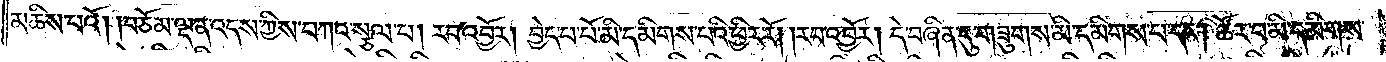མཆིས་པའོ། །བཅོམ་ལྡན་འདས་ཀྱིས་བཀའ་སྩལ་པ། རབ་འབྱོར། བྱེད་པ་པོ་མི་དམིགས་པའི་ཕྱིར་རོ། །རབ་འབྱོར། དེ་བཞིན་དུ་གཟུགས་མི་དམིགས་པ་དང༌། ཚོར་བ་མི་དམིགས་
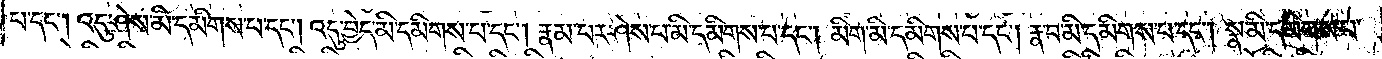པ་དང༌། འདུ་ཤེས་མི་དམིགས་པ་དང༌། འདུ་བྱེད་མི་དམིགས་པ་དང༌། རྣམ་པར་ཤེས་པ་མི་དམིགས་པ་དང༌། མིག་མི་དམིགས་པ་དང༌། རྣ་བ་མི་དམིགས་པ་དང༌། སྣ་མི་དམིགས་པ་
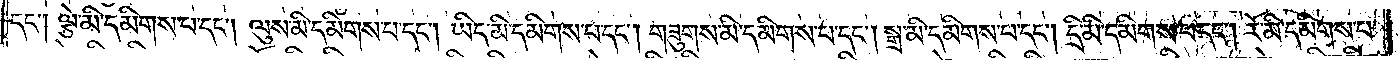དང༌། ལྕེ་མི་དམིགས་པ་དང༌། ལུས་མི་དམིགས་པ་དང༌། ཡིད་མི་དམིགས་པ་དང༌། གཟུགས་མི་དམིགས་པ་དང༌། སྒྲ་མི་དམིགས་པ་དང༌། དྲི་མི་དམིགས་པ་དང༌། རོ་མི་དམིགས་པ་
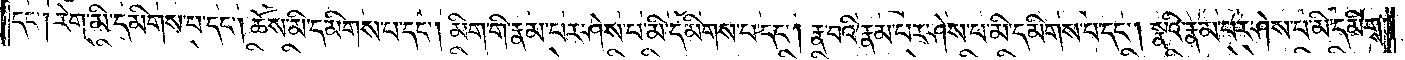དང༌། རེག་མི་དམིགས་པ་དང༌། ཆོས་མི་དམིགས་པ་དང༌། མིག་གི་རྣམ་པར་ཤེས་པ་མི་དམིགས་པ་དང༌། རྣ་བའི་རྣམ་པར་ཤེས་པ་མི་དམིགས་པ་དང༌། སྣའི་རྣམ་པར་ཤེས་པ་མི་དམིགས་
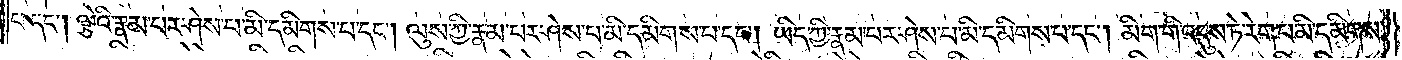པ་དང༌། ལྕེའི་རྣམ་པར་ཤེས་པ་མི་དམིགས་པ་དང༌། ལུས་ཀྱི་རྣམ་པར་ཤེས་པ་མི་དམིགས་པ་དང༌། ཡིད་ཀྱི་རྣམ་པར་ཤེས་པ་མི་དམིགས་པ་དང༌། མིག་གི་འདུས་ཏེ་རེག་པ་མི་དམིགས་
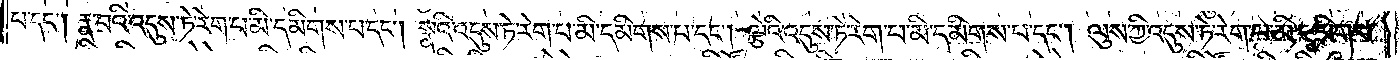པ་དང༌། རྣ་བའི་འདུས་ཏེ་རེག་པ་མི་དམིགས་པ་དང༌། སྣའི་འདུས་ཏེ་རེག་པ་མི་དམིགས་པ་དང༌། ལྕེའི་འདུས་ཏེ་རེག་པ་མི་དམིགས་པ་དང༌། ལུས་ཀྱི་འདུས་ཏེ་རེག་པ་མི་དམིགས་
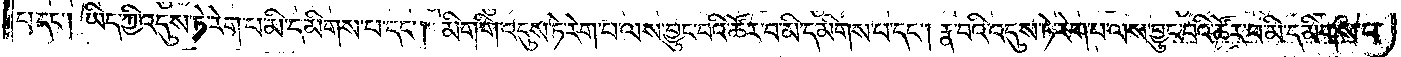པ་དང༌། ཡིད་ཀྱི་འདུས་ཏེ་རེག་པ་མི་དམིགས་པ་དང༌། མིག་གི་འདུས་ཏེ་རེག་པ་ལས་བྱུང་བའི་ཚོར་བ་མི་དམིགས་པ་དང༌། རྣ་བའི་འདུས་ཏེ་རེག་པ་ལས་བྱུང་བའི་ཚོར་བ་མི་དམིགས་པ་
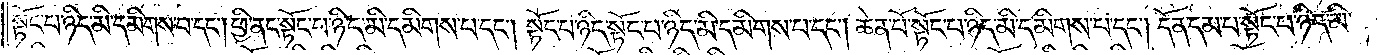སྟོང་པ་ཉིད་མི་དམིགས་པ་དང༌། ཕྱི་ནང་སྟོང་པ་ཉིད་མི་དམིགས་པ་དང༌། སྟོང་པ་ཉིད་སྟོང་པ་ཉིད་མི་དམིགས་པ་དང༌། ཆེན་པོ་སྟོང་པ་ཉིད་མི་དམིགས་པ་དང༌། དོན་དམ་པ་སྟོང་པ་ཉིད་མི་
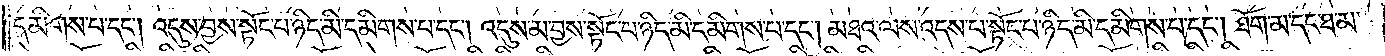དམིགས་པ་དང༌། འདུས་བྱས་སྟོང་པ་ཉིད་མི་དམིགས་པ་དང༌། འདུས་མ་བྱས་སྟོང་པ་ཉིད་མི་དམིགས་པ་དང༌། མཐའ་ལས་འདས་པ་སྟོང་པ་ཉིད་མི་དམིགས་པ་དང༌། ཐོག་མ་དང་ཐ་མ་
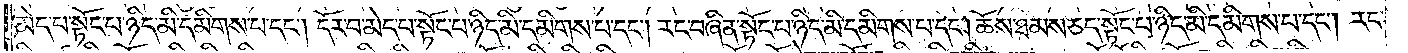མེད་པ་སྟོང་པ་ཉིད་མི་དམིགས་པ་དང༌། དོར་བ་མེད་པ་སྟོང་པ་ཉིད་མི་དམིགས་པ་དང༌། རང་བཞིན་སྟོང་པ་ཉིད་མི་དམིགས་པ་དང༌། ཆོས་ཐམས་ཅད་སྟོང་པ་ཉིད་མི་དམིགས་པ་དང༌། རང་
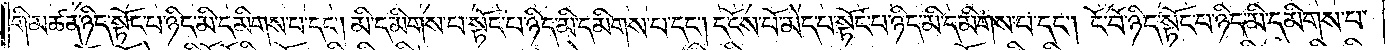གི་མཚན་ཉིད་སྟོང་པ་ཉིད་མི་དམིགས་པ་དང༌། མི་དམིགས་པ་སྟོང་པ་ཉིད་མི་དམིགས་པ་དང༌། དངོས་པོ་མེད་པ་སྟོང་པ་ཉིད་མི་དམིགས་པ་དང༌། ངོ་བོ་ཉིད་སྟོང་པ་ཉིད་མི་དམིགས་པ་
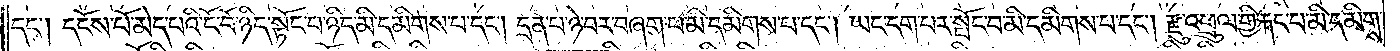དང༌། དངོས་པོ་མེད་པའི་ངོ་བོ་ཉིད་སྟོང་པ་ཉིད་མི་དམིགས་པ་དང༌། དྲན་པ་ཉེ་བར་བཞག་པ་མི་དམིགས་པ་དང༌། ཡང་དག་པར་སྤོང་བ་མི་དམིགས་པ་དང༌། རྫུ་འཕྲུལ་གྱི་རྐང་པ་མི་དམིགས་
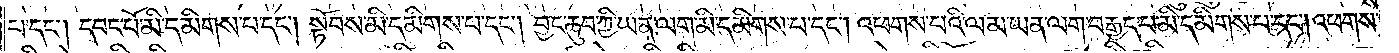པ་དང༌། དབང་པོ་མི་དམིགས་པ་དང༌། སྟོབས་མི་དམིགས་པ་དང༌། བྱང་ཆུབ་ཀྱི་ཡན་ལག་མི་དམིགས་པ་དང༌། འཕགས་པའི་ལམ་ཡན་ལག་བརྒྱད་པ་མི་དམིགས་པ་དང༌། འཕགས་
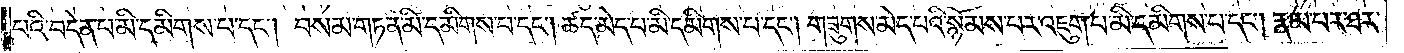པའི་བདེན་པ་མི་དམིགས་པ་དང༌། བསམ་གཏན་མི་དམིགས་པ་དང༌། ཚད་མེད་པ་མི་དམིགས་པ་དང༌། གཟུགས་མེད་པའི་སྙོམས་པར་འཇུག་པ་མི་དམིགས་པ་དང༌། རྣམ་པར་ཐར་
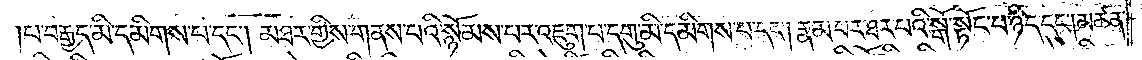པ་བརྒྱད་མི་དམིགས་པ་དང༌། མཐར་གྱིས་གནས་པའི་སྙོམས་པར་འཇུག་པ་དགུ་མི་དམིགས་པ་དང༌། རྣམ་པར་ཐར་པའི་སྒོ་སྟོང་པ་ཉིད་དང༌། མཚན་
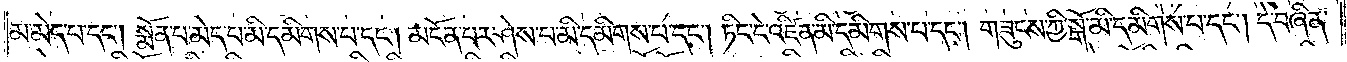མ་མེད་པ་དང༌། སྨོན་པ་མེད་པ་མི་དམིགས་པ་དང༌། མངོན་པར་ཤེས་པ་མི་དམིགས་པ་དང༌། ཏིང་ངེ་འཛིན་མི་དམིགས་པ་དང༌། གཟུངས་ཀྱི་སྒོ་མི་དམིགས་པ་དང༌། དེ་བཞིན་
